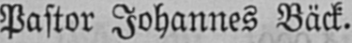Pastor Johannes Bäck.
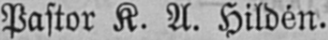Pastor K. A. Hildén.
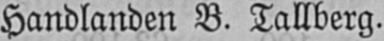Handlanden B. Tallberg.
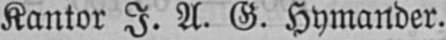Kantor I. A. G. Hymander.
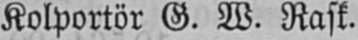Kolportör G. W. Rask.
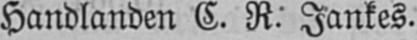Handlanden C. R. Jankes.
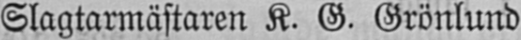Slagtarmästaren K. G. Grönlund.
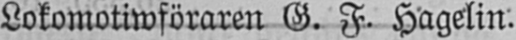Lokomotiwföraren G. F. Hagelin.
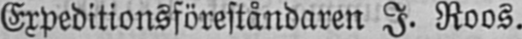Expeditionsföreståndaren I. Roos.
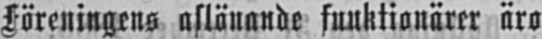Föreningens aflönande funktionärer äro
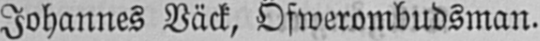Johannes Bäck, Öfwerombudsman.
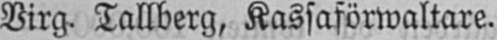Virg. Tallberg, Kassaförwaltare.
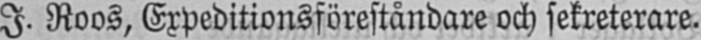I. Roos, Expeditionsföreståndare och sekreterare.
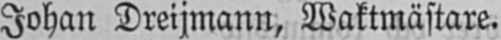Johan Dreijmann, Waktmästare.
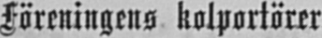Föreningens kolportörer
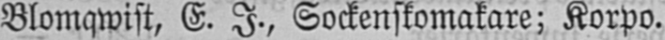Blomqwist, E. I., Sockenskomakare; Korpo.
